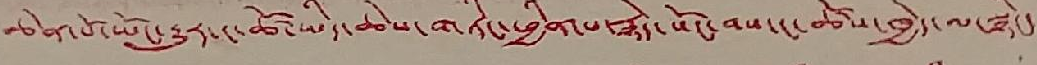ཆེན་པོ་ཡོང་རྒྱུར་ང་ཚོ་ཡིད་ཆེས་གཏིང་ཕྱིན་པ་རྙེད་སོང་བས་ང་ཚོས་ཁྱེད་ལ་སྙིང་
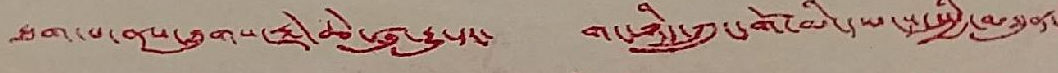ཐག་པ་ནས་ཐུགས་རྗེ་ཆེ་ཞུ་རྒྱུ་དང་ གང་ཉིད་ཀྲུང་གོ་མི་དམངས་སྤྱི་མཐུན་
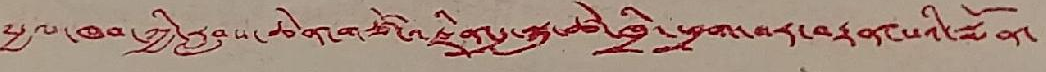༸རྒྱལ་ཁབ་ཀྱི་རླབས་ཆེན་གཙོ་འཛིན་དུ་སྐུ་ཚེ་ཁྲི་ཕྲག་བར་བརྟན་པའི་སྨོན་
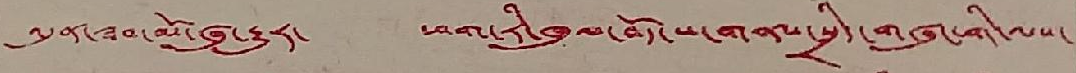འདུན་ཟབ་མོ་ཞུ་རྒྱུར་ ཕག་རི་ཁུལ་བོད་ས་གནས་སྲིད་གཞུང་གི་ལས་
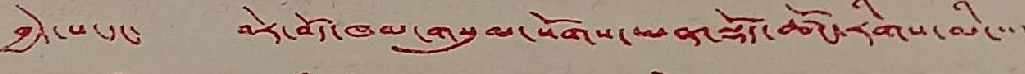བྱེད་པ་དང་ བེར་བོད་ཁམ་གསུམ་སོགས་ཡན་སྡོད་ཚོང་རིགས་མི་་་་
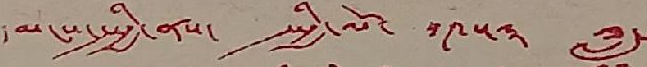དམངས་སྤྱི་ནས་ སྤྱི་ལོ་ ༡༩༥༣ ཟླ་
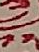༡༢
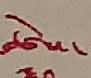ཚེས་
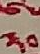༣༠
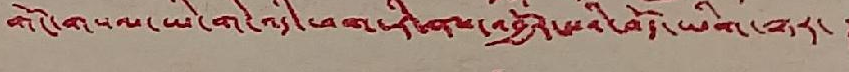གོང་གསལ་ཡི་གེ་འདི་ཕག་རི་ནས་འབྱོར་པའི་བོད་ཡིག་ལྟར་
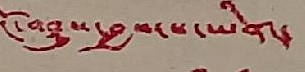ངོ་བཤུས་བྱས་པ་ཡིན་།
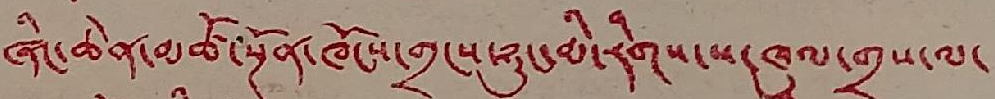ཞིང་ཆེན་མཚོ་སྔོན་ཁོངས་གྲངས་ཉུང་མི་རིགས་ས་ཁུལ་གྲས་ལ་
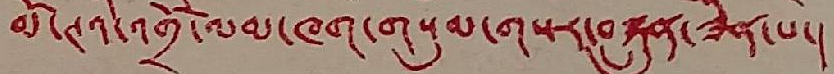མོ་ཊའི་འགྲོ་ལམ་ཁག་གསུམ་གསར་བསྐྲུན་ཟིན་པ་།
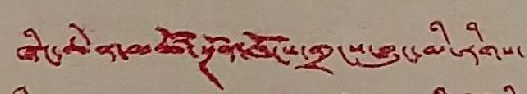ཞིང་ཆེན་མཚོ་སྔོན་ཁོངས་གྲངས་ཉུང་མི་རིགས་
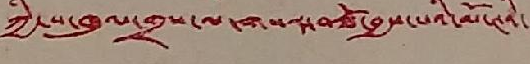ཀྱི་ས་ཁུལ་གྲས་ལ་གསར་བཟོ་བྱས་པའི་མོ་ཊའི་
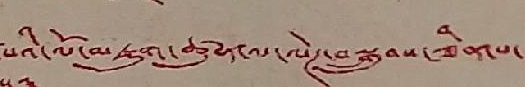པའི་ལོ་མཇུག་ཚུན་ལ་ལེཊ་བསྒྲུབས་ཟིན་པ་
